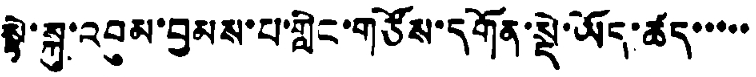སྟེ་སྐུ་འབུམ་བྱམས་པ་གླིང་གཙོས་དགོན་སྡེ་ཡོད་ཚད་་་་་
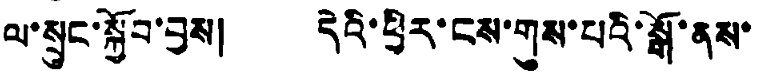ལ་སྲུང་སྐྱོབ་བྱས། དེའི་ཕྱིར་ངས་གུས་པའི་སྒོ་ནས་
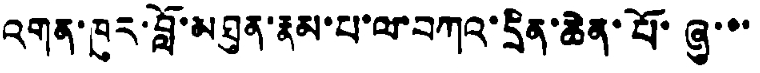འགན་ཁུར་བློ་མཐུན་རྣམ་པ་ལ་བཀའ་དྲིན་ཆེན་པོ་ཞུ་་་
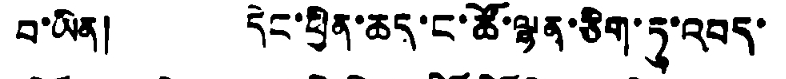བ་ཡིན། དེང་ཕྱིན་ཆད་ང་ཚོ་ལྷན་ཅིག་དུ་འབད་
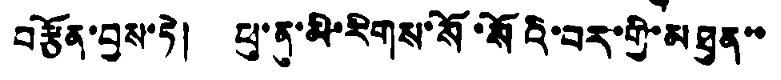བརྩོན་བྱས་ཏེ། ཕུ་ནུ་མི་རིགས་སོ་སོའི་བར་གྱི་མཐུན་་
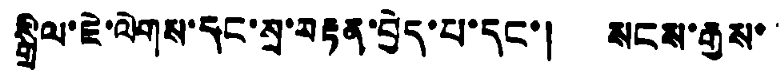སྒྲིལ་ཇེ་ལེགས་དང་སྲ་བརྟན་བྱེད་པ་དང་། སངས་རྒྱས་
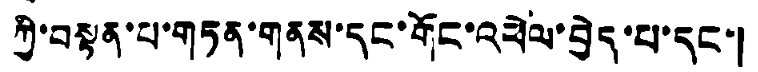ཀྱི་བསྟན་པ་གཏན་གནས་དང་གོང་འཕེལ་བྱེད་པ་དང་།
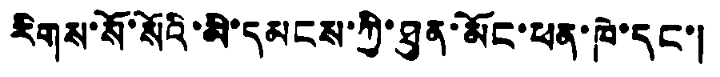རིགས་སོ་སོའི་མི་དམངས་ཀྱི་ཐུན་མོང་ཕན་ཁེ་དང་།
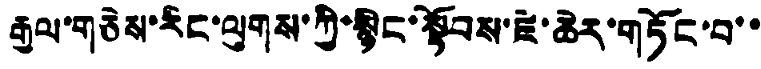རྒྱལ་གཅེས་རིང་ལུགས་ཀྱི་སྙིང་སྟོབས་ཇེ་ཆེར་གཏོང་བ་་
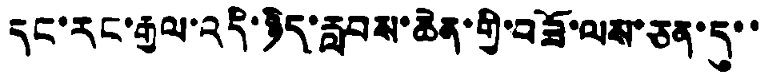དང་རང་རྒྱལ་འདི་ཉིད་རླབས་ཆེན་གྱི་བཟོ་ལས་ཅན་དུ་་
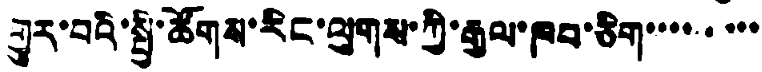གྱུར་བའི་སྤྱི་ཚོགས་རིང་ལུགས་ཀྱི་རྒྱལ་ཁབ་ཅིག་་་་་་་་་
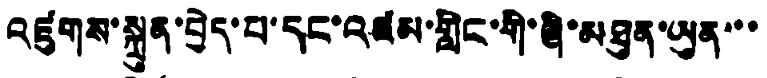འཛུགས་སྐྲུན་བྱེད་པ་དང་འཛམ་གླིང་གི་ཞི་མཐུན་ཡུན་་་
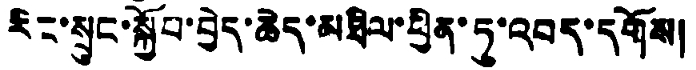རིང་སྲུང་སྐྱོབ་བྱེད་ཆེད་མཐིལ་ཕྱིན་ཏུ་འབད་དགོས།
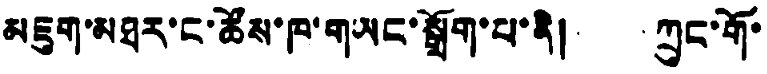མཇུག་མཐར་ང་ཚོས་ཁ་གཡང་སྒྲོག་པ་ནི། ཀྲུང་གོ་
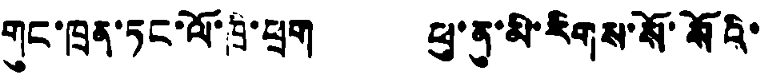གུང་ཁྲན་ཏང་ལོ་ཁྲི་ཕྲག ཕུ་ནུ་མི་རིགས་སོ་སོའི་
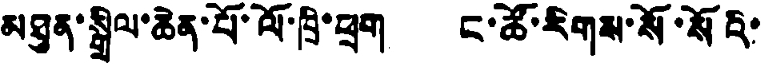མཐུན་སྒྲིལ་ཆེན་པོ་ལོ་ཁྲི་ཕྲག ང་ཚོ་རིགས་སོ་སོའི་
